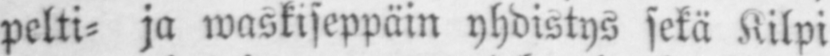pelti- ja waskiseppäin yhdistys sekä Kilpi
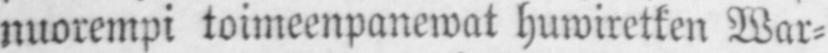nuorempi toimeenpanewat huwiretken War-
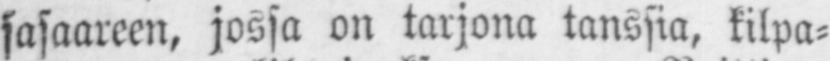sasaareen, jossa on tarjona tanssia, kilpa-
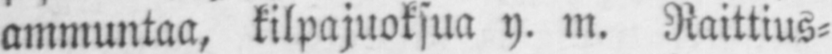ammuntaa, kilpajuoksua y. m. Raittius-
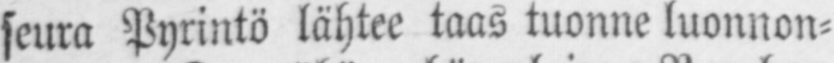seura Pyrintö lähtee taas tuonne luonnon-
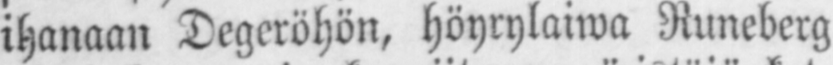ihanaan Degeröhön, höyrylaiwa Runeberg
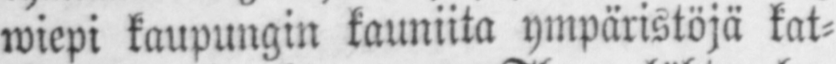wiepi kaupungin kauniita ympäristöjä kat-
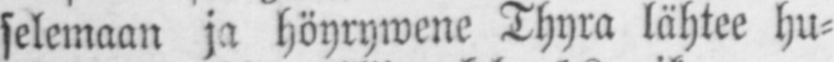selemaan ja höyrywene Thyra lähtee hu-
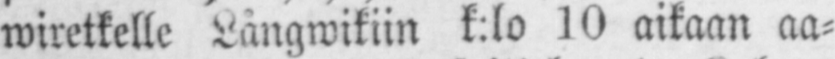wiretkelle Långwikiin k:lo 10 aikaan aa-
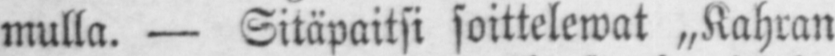mulla. — Sitäpaitsi soittelewat „Kahran
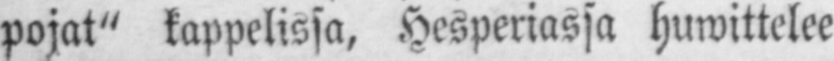pojat" kappelissa, Hesperiassa huwittelee
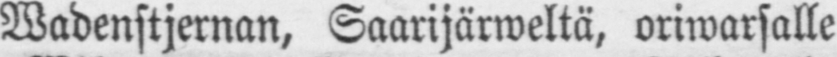Wadenstjernan, Saarijärweltä, oriwarsalle
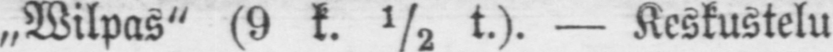„Wilpas" (9 k. ½ k.). — Keskustelu
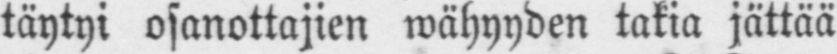täytyi osanottajien wähyyden takia jättää
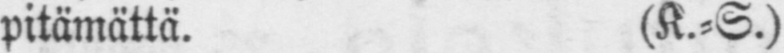pitämättä. (K.-S.)
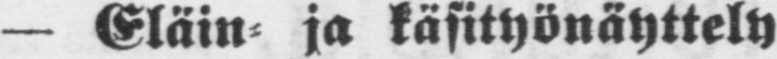— Eläin ja käsityönäyttely
